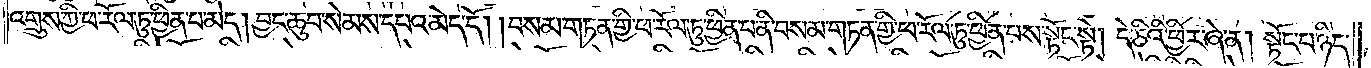འགྲུས་ཀྱི་ཕ་རོལ་ཏུ་ཕྱིན་པ་མེད། བྱང་ཆུབ་སེམས་དཔའ་མེད་དོ། །བསམ་གཏན་གྱི་ཕ་རོལ་ཏུ་ཕྱིན་པ་ནི་བསམ་གཏན་གྱི་ཕ་རོལ་ཏུ་ཕྱིན་པས་སྟོང་སྟེ། དེ་ཅིའི་ཕྱིར་ཞེ་ན། སྟོང་པ་ཉིད་
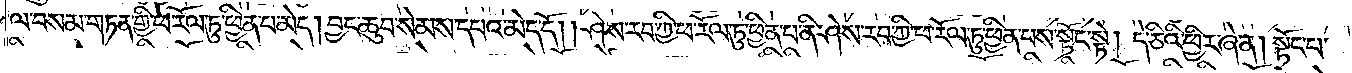ལ་བསམ་གཏན་གྱི་ཕ་རོལ་ཏུ་ཕྱིན་པ་མེད། བྱང་ཆུབ་སེམས་དཔའ་མེད་དོ། །ཤེས་རབ་ཀྱི་ཕ་རོལ་ཏུ་ཕྱིན་པ་ནི་ཤེས་རབ་ཀྱི་ཕ་རོལ་ཏུ་ཕྱིན་པས་སྟོང་སྟེ། དེ་ཅིའི་ཕྱིར་ཞེ་ན། སྟོང་པ་
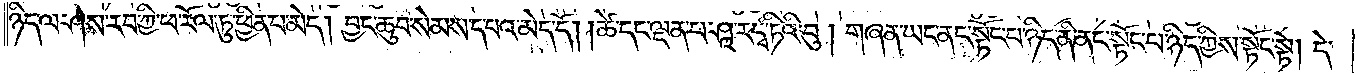ཉིད་ལ་ཤེས་རབ་ཀྱི་ཕ་རོལ་ཏུ་ཕྱིན་པ་མེད། བྱང་ཆུབ་སེམས་དཔའ་མེད་དོ། །ཚེ་དང་ལྡན་པ་ཤཱ་ར་དྭ་ཏིའི་བུ། གཞན་ཡང་ནང་སྟོང་པ་ཉིད་ནི་ནང་སྟོང་པ་ཉིད་ཀྱིས་སྟོང་སྟེ། དེ་
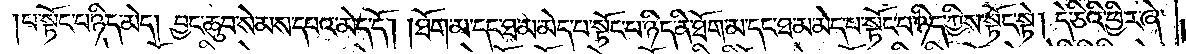པ་སྟོང་པ་ཉིད་མེད། བྱང་ཆུབ་སེམས་དཔའ་མེད་དོ། །ཐོག་མ་དང་ཐ་མ་མེད་པ་སྟོང་པ་ཉིད་ནི་ཐོག་མ་དང་ཐ་མ་མེད་པ་སྟོང་པ་ཉིད་ཀྱིས་སྟོང་སྟེ། དེ་ཅིའི་ཕྱིར་ཞེ་
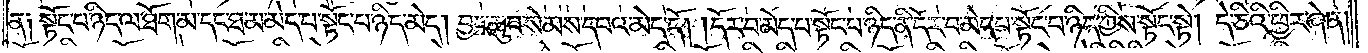ན། སྟོང་པ་ཉིད་ལ་ཐོག་མ་དང་ཐ་མ་མེད་པ་སྟོང་པ་ཉིད་མེད། བྱང་ཆུབ་སེམས་དཔའ་མེད་དོ། །དོར་བ་མེད་པ་སྟོང་པ་ཉིད་ནི་དོར་བ་མེད་པ་སྟོང་པ་ཉིད་ཀྱིས་སྟོང་སྟེ། དེ་ཅིའི་ཕྱིར་ཞེ་ན།
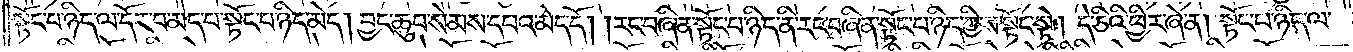སྟོང་པ་ཉིད་ལ་དོར་བ་མེད་པ་སྟོང་པ་ཉིད་མེད། བྱང་ཆུབ་སེམས་དཔའ་མེད་དོ། །རང་བཞིན་སྟོང་པ་ཉིད་ནི་རང་བཞིན་སྟོང་པ་ཉིད་ཀྱིས་སྟོང་སྟེ། དེ་ཅིའི་ཕྱིར་ཞེ་ན། སྟོང་པ་ཉིད་ལ་
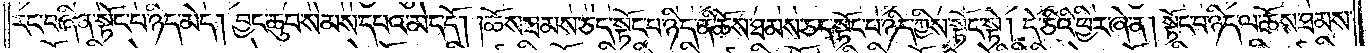རང་བཞིན་སྟོང་པ་ཉིད་མེད། བྱང་ཆུབ་སེམས་དཔའ་མེད་དོ། །ཆོས་ཐམས་ཅད་སྟོང་པ་ཉིད་ནི་ཆོས་ཐམས་ཅད་སྟོང་པ་ཉིད་ཀྱིས་སྟོང་སྟེ། དེ་ཅིའི་ཕྱིར་ཞེ་ན། སྟོང་པ་ཉིད་ལ་ཆོས་ཐམས་
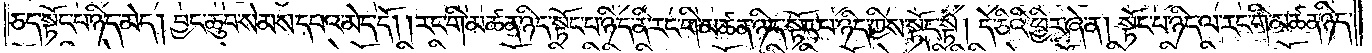ཅད་སྟོང་པ་ཉིད་མེད། བྱང་ཆུབ་སེམས་དཔའ་མེད་དོ། །རང་གི་མཚན་ཉི་སྟོང་པ་ཉིད་ནི་རང་གི་མཚན་ཉིད་སྟོང་པ་ཉིད་ཀྱིས་སྟོང་སྟེ། དེ་ཅིའི་ཕྱིར་ཞེ་ན། སྟོང་པ་ཉིད་ལ་རང་གི་མཚན་ཉིད་
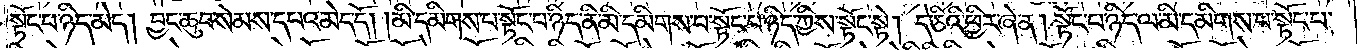སྟོང་པ་ཉིད་མེད། བྱང་ཆུབ་སེམས་དཔའ་མེད་དོ། །མི་དམིགས་པ་སྟོང་པ་ཉིད་ནི་མི་དམིགས་པ་སྟོང་པ་ཉིད་ཀྱིས་སྟོང་སྟེ། དེ་ཅིའི་ཕྱིར་ཞེ་ན། སྟོང་པ་ཉིད་ལ་མི་དམིགས་པ་སྟོང་པ་
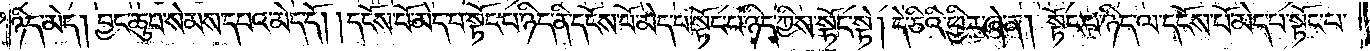ཉིད་མེད། བྱང་ཆུབ་སེམས་དཔའ་མེད་དོ། །དངོས་པོ་མེད་པ་སྟོང་པ་ཉིད་ནི་དངོས་པོ་མེད་པ་སྟོང་པ་ཉིད་ཀྱིས་སྟོང་སྟེ། དེ་ཅིའི་ཕྱིར་ཞེ་ན། སྟོང་པ་ཉིད་ལ་དངོས་པོ་མེད་པ་སྟོང་པ་
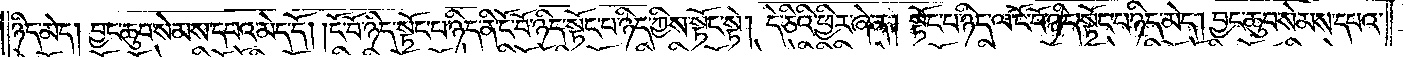ཉིད་མེད། བྱང་ཆུབ་སེམས་དཔའ་མེད་དོ། །ངོ་བོ་ཉིད་སྟོང་པ་ཉིད་ནི་ངོ་བོ་ཉིད་སྟོང་པ་ཉིད་ཀྱིས་སྟོང་སྟེ། དེ་ཅིའི་ཕྱིར་ཞེ་ན། སྟོང་པ་ཉིད་ལ་ངོ་བོ་ཉིད་སྟོང་པ་ཉིད་མེད། བྱང་ཆུབ་སེམས་དཔའ་
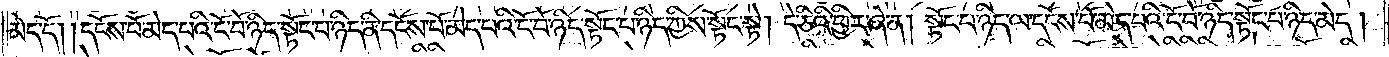མེད་དོ། །དངོས་པོ་མེད་པའི་ངོ་བོ་ཉིད་སྟོང་པ་ཉིད་ནི་དངོས་པོ་མེད་པའི་ངོ་བོ་ཉིད་སྟོང་པ་ཉིད་ཀྱིས་སྟོང་སྟེ། དེ་ཅིའི་ཕྱིར་ཞེ་ན། སྟོང་པ་ཉིད་ལ་དངོས་པོ་མེད་པའི་ངོ་བོ་ཉིད་སྟོང་པ་ཉིད་མེད།
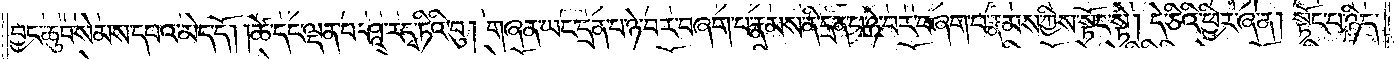བྱང་ཆུབ་སེམས་དཔའ་མེད་དོ། །ཚེ་དང་ལྡན་པ་ཤཱ་ར་དྭ་ཏིའི་བུ། གཞན་ཡང་དྲན་པ་ཉེ་བར་བཞག་པ་རྣམས་ནི་དྲན་པ་ཉེ་བར་བཞག་པ་རྣམས་ཀྱིས་སྟོང་སྟེ། དེ་ཅིའི་ཕྱིར་ཞེ་ན། སྟོང་པ་ཉིད་
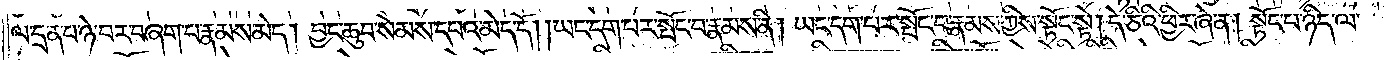ལ་དྲན་པ་ཉེ་བར་བཞག་པ་རྣམས་མེད། བྱང་ཆུབ་སེམས་དཔའ་མེད་དོ། །ཡང་དག་པར་སྤོང་བ་རྣམས་ནི། ཡང་དག་པར་སྤོང་བ་རྣམས་ཀྱིས་སྟོང་སྟེ། དེ་ཅིའི་ཕྱིར་ཞེ་ན། སྟོང་པ་ཉིད་ལ་
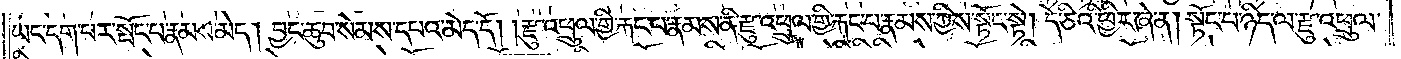ཡང་དག་པར་སྤོང་བ་རྣམས་མེད། བྱང་ཆུབ་སེམས་དཔའ་མེད་དོ། །རྫུ་འཕྲུལ་གྱི་རྐང་པ་རྣམས་ནི་རྫུ་འཕྲུལ་གྱི་རྐང་པ་རྣམས་ཀྱིས་སྟོང་སྟེ། དེ་ཅིའི་ཕྱིར་ཞེ་ན། སྟོང་པ་ཉིད་ལ་རྫུ་འཕྲུལ་
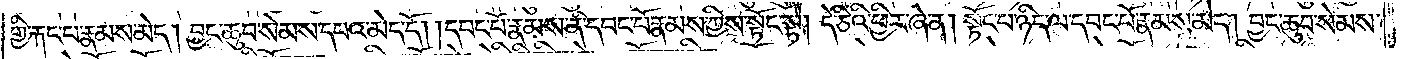གྱི་རྐང་པ་རྣམས་མེད། བྱང་ཆུབ་སེམས་དཔའ་མེད་དོ། །དབང་པོ་རྣམས་ནི་དབང་པོ་རྣམས་ཀྱིས་སྟོང་སྟེ། དེ་ཅིའི་ཕྱིར་ཞེ་ན། སྟོང་པ་ཉིད་ལ་དབང་པོ་རྣམས་མེད། བྱང་ཆུབ་སེམས་
